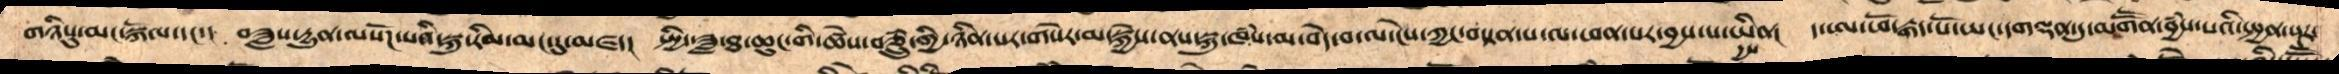གཉིསུ་མང་སྐོལ་དང་།  བཟླས་དྱུན་ལསོཌ་པའི་སྐུ་རིམ་མང་དུ་མཛད།  སྤྱི་ཟླ་ཐ་ཆུང་གི་ཚེས་བཅྲུཾ་གྱི་ཉིན་པར་གསེར་མ་སྐྱེས་ནས་སྐུ་ཁཾས་མ་བདེ་བ་ལ་ངེས་ཀྱང་བསྟན་པ་ལ་ཕན་པར་བྱས་པ་ཡིན། ད་ཨ་ཕོ་རྒད་པོ་ཡང་དགལྡན་དུ་མགཽན་བྱཾས་པའི་སྤྱན་སྔར་
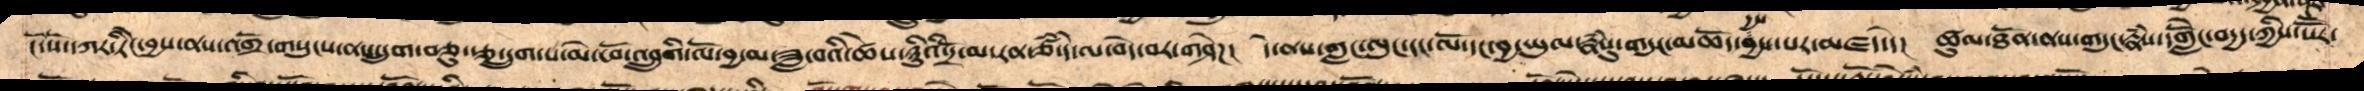ངོ་སོ་དཀར་ཏིངེ་བྱས་ནས་འགྲོ་གསུངས་ནས་དྲུག་བཅུ་རྩ་དྲུག་པ་མེ་ཕོ་འབྲུགི་ལོ་བྱ་མ་ཟླ་བའི་ཚེས་ཉིུའི་དྲོ་མ་རན་ཙཾ་དེ་ལ་བདེ་བར་གཤེཌ།  དེ་ནས་གླང་ལུང་དང་ལོ་དང་བྱ་ཡུལ་རྣཾསུ་གདུང་མཆོད་དྱས་པར་མཛད་དེ་  ཚུལ་ཐོན་ནས་གདུང་རྣཾས་དགླེངོ་བདྱད་ཀྱིས་སཽར་
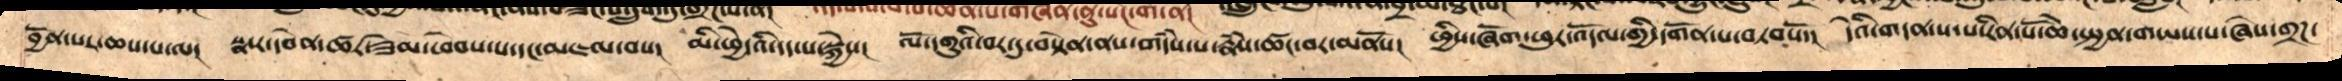བྱོན་པར་ཆས་པ་ལ། སྣ་ར་དབེན་ཚར་ཟེམ་ཕེབས་པ་དང་མཇལ་བས།  མི་ཕྱེ་འི་དད་པ་སྐྱེས། ལོ་དགུའི་བར་དུ་བསྟེན་ནས་གདཾས་པ་རྣཾས་ཚང་བར་མནོས།  ཕྱིས་ཞོག་ཕུར་འདོལ་གྱི་དགོན་པ་བཏབསོ་།  དེའི་གདན་ས་རིན་པོ་ཆེ་སྤྱན་གཡས་པ་ཞེས་གྲཌ་
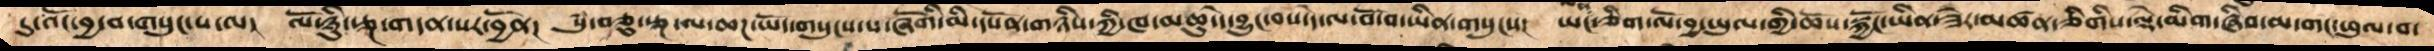དུ་འོང་བྱ་བ་གསུང་པ་ལ།  ལོ་ཉིུ་རྩྔ་གདན་སར་བྱོན།  སུཾ་བཅུ་རྩྔ་ལ་ཆཌ་ཡོད་གསུངས་པ་ཞོགི་མི་དཔོན་གཉིས་ཀྱི་ཁ་མཆུ་དེ་བྱུང་བས་དེ་ལ་བོ་བ་ཡིན་གསུངས།  ཡང་ལན་ཅིག་ལོ་བྱ་ཡུལ་གྱི་ཆོས་སྐྱོང་ཡིན་ཟེར་མཚན་ཅིགིས་ལྡེ་མིག་ཞིབ་མ་གང་ཕུལ་བ་
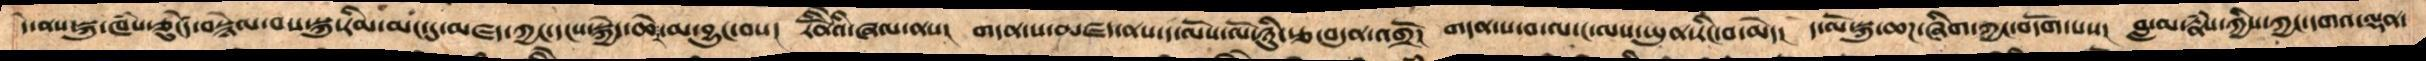དེ་ནས་སྐུ་ཁཾས་ཅུངཟེད་བསྙེལ་བས་སྐུ་རིམ་མང་དུ་མཛད་ཀྱང་དངས་སྐྱེད་ཆེར་མ་བྱུང་བས།  རིནོེའི་ཞལ་ནས།  གདན་ས་མཛད་ནས་ད་ལོས་ལོ་ཉིུརྩ་བདུན་འགྲོ། གདན་ས་བ་ལ་ང་ལས་ཡུན་རིང་བ་མེད།  ད་ལོ་སྐུ་ཆཌ་ཞིག་ཀྱང་བདོག་པས།  བླ་མ་རྣཾས་ཀྱིས་ཀྱང་དགའ་ལྡན་
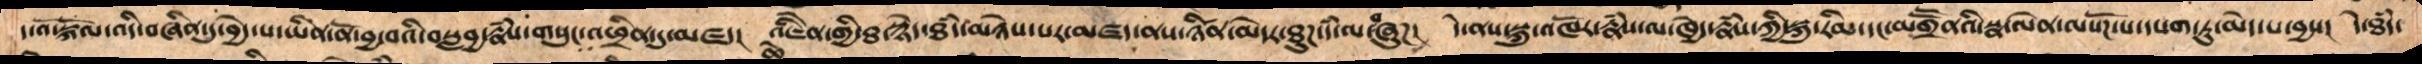ད་འོ་སྐོལ་འདི་བཞིན་དུ་བྱེད་པ་ཡིན་ནོ་བྱ་བའི་བསླབྱ་རྣཾས་གསུང་འཕྲིན་དུ་མཛད།  འཇིནེ་གྱི་ཐ་སྙེད་ཐཾད་མཉེས་པར་མཛད་ནས་ཉིཚན་མེདར་ཐུཌ་དཾ་ལ་བཞུཌ།  དེ་ནས་སྐུ་འཁོར་རྣཾས་ལ་ཁྱེད་རྣཾས་ཀྱི་སྐུ་རིམ་དང་མགྲཽནའི་སྣ་ལེན་ལསོཌ་པ་དཔག་ཏུ་མེད་པ་བྱས།  དེ་ཐཾད་
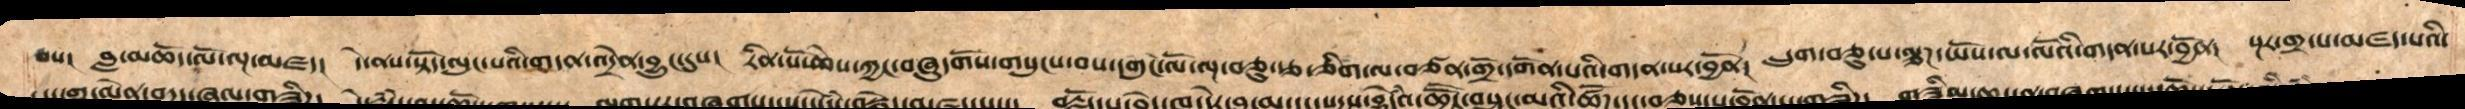བས།  བླ་མཆོད་ལོ་ལྔ་མཛད།  དེ་ནས་སྟོད་ལུང་པའི་གདན་འདྲེན་བྱུང་དུས། རིན་པོ་ཆེས་ཀྱང་བཞུ་གོས་གསུང་བས་དགུང་ལོ་ལྔ་བཅུ་རྩ་ཅིག་ལ་བཙན་གྲོ་དགོན་པའི་གདན་སར་བྱོན།  དྲུག་བཅུ་པ་ལྕཌ་ཡོས་ལ་ལོའི་གདན་སར་བྱོན། སྔར་གྲྭ་པ་མཛད་པའི་
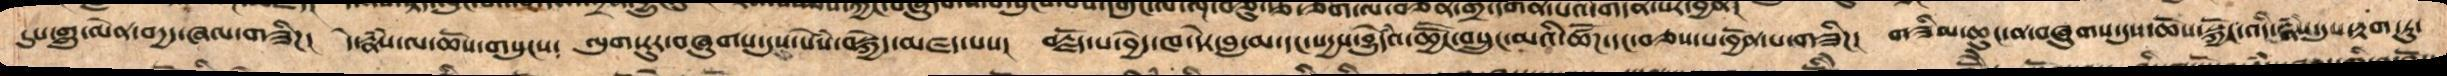དུས་གླུ་ལེན་བདྱད་ཞལ་གཟིཌ།  དེ་རྣཾས་ལ་ཆོས་གསུངས།  ལུག་རུར་བཞུགས་དུས་སེཾས་བསྐྱེད་མཛད་པས།  བརྗོད་པ་བྱེད་ཁ་དེར་བླ་མ་དང་སདྱས་བྱུདེཾའ་ཆྱཽང་བསྲུང་མའི་ཚོཌ་དང་བཅས་པ་བྱོན་པ་གཟིཌ། གཟིམ་ཆུང་ན་བཞུགས་དུས་ཆོས་སྐྱོང་འདི་རྣཾས་དུས་རྟག་ཏུ་
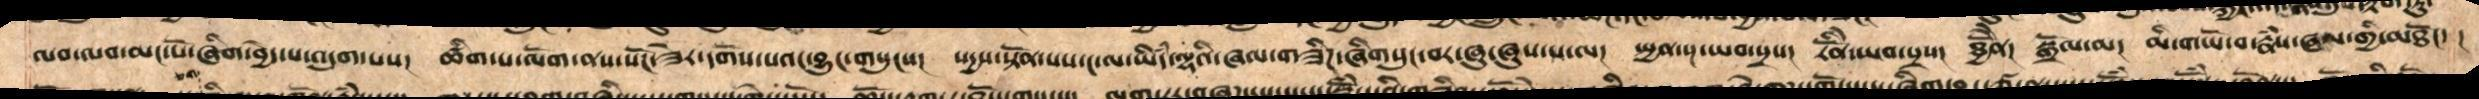ལབ་ལབ་མང་པོ་ཞིག་བྱེད་པ་འདུག་པས།  ཚིག་པ་ལོག་ནས་སོང་ཟེར་དགོས་པའང་བྱུང་གསུངས།  སདྱས་སྟོན་པས་ང་ལ་ཡི་དཾ་ལྷའི་ཞལ་གཟིཌ་ཞིགསུང་བར་ཞུ་ཞུས་པ་ལ།  སྤྱན་སྔ་ཡབ་སྲས། རིནོེ་ཡབ་སྲས།  ཐྱིནོེ། སྒྲོལ་མ། མི་གཡོ་བ་རྣཾས་ཀྱི་ཞལ་གྱི་མཐོང་།
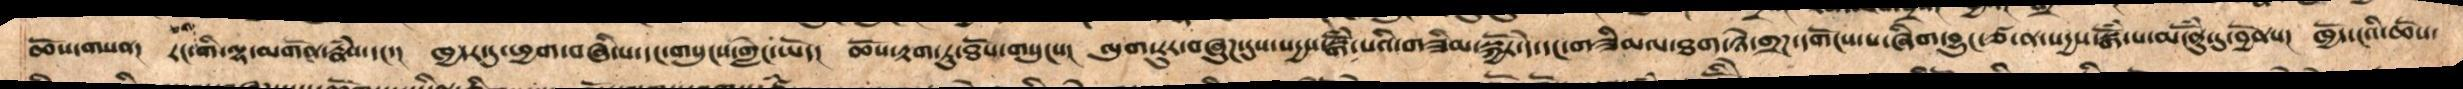ཆོས་གསན། རང་གི་ལྷ་མགོན་རྣཾས་དང་། ཁྱདར་དུ་ཕྱག་བཞི་པ་དང་གསུངས་གླེང་ཡོད་། ཆོས་རྟག་ཏུ་ཐོས་གསུངས། ལུག་རུར་བཞུཌ་དུས་སདྱས་སྒོཾ་པའི་གཟིམ་སྐྱོར་དེ་དང་གཟིམལ་ཐག་ཉེ་གྲཌ་དགོངས་པ་ཞིག་བྱུང་ཙ་ན་སདྱས་སྒོཾ་པ་མངོནུཾ་དུ་བྱོནས། ཁྱོད་ངའི་ཆོས་
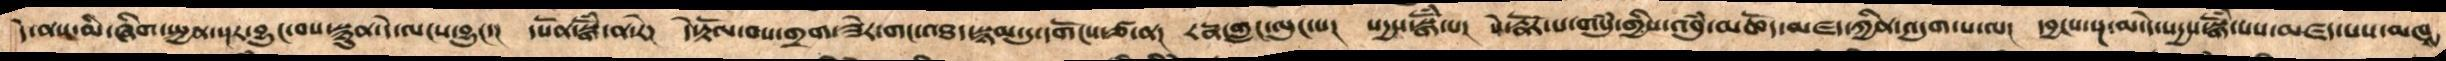དེ་ནས་མི་ཞིག་སྤྱན་སྔར་བྱུང་བས་སྙུན་དེ་ལངས་བྱུང་།  དཔོན་སྒོཾ་ན་རེ། དེ་རྟོལ་བས་གྲག་ཟེར་གང་འཐད་སྙམ་དུ་དགོངས་ཙ་ན།  རཏྣ་གླང་ལུང་པ། སདྱས་སྒོཾ་པ།  སེ་རྣོར་པ་གསུཾ་གྱིས་འབུཾ་མཆོད་མཛད་ཀྱིན་འདུག་པ་ལ།  དབྱངས་སྔ་མ་དེ་སདྱས་སྒོཾ་པས་མཛད་པས་མཁས
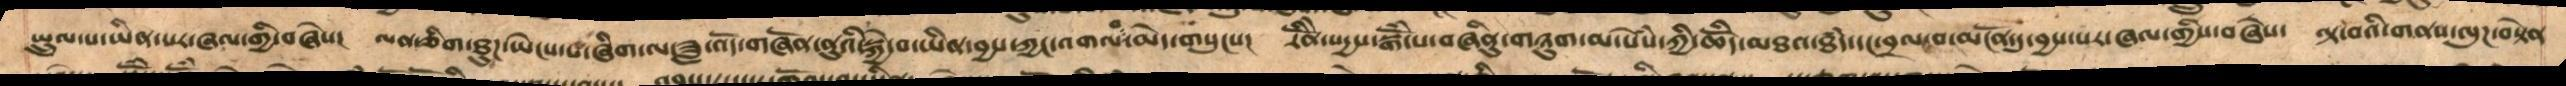སྤྲུལ་པ་ཡིན་པར་ཞལ་གྱི་བཞེས།  ལན་ཅིག་ཐུཌ་ཡེངས་པ་ཞིག་ལ་ཟླ་འོད་གཞོན་ནུའི་སྐྱེ་བ་ཡིན་བྱས་ཀྱང་འགལ་བ་མེད་གསུངས།  རིནོེ་སདྱས་སྒོཾ་པ་བཞིནུ་གཉུག་མ་སེཾས་ཀྱི་ཆོིད་མཐའ་ཐཾད་དང་བྲལ་བ་མངོན་དུ་བྱས་པར་ཞལ་གྱིས་བཞེས།  ལྟ་བའི་གནས་ལུཌ་བསྟེན
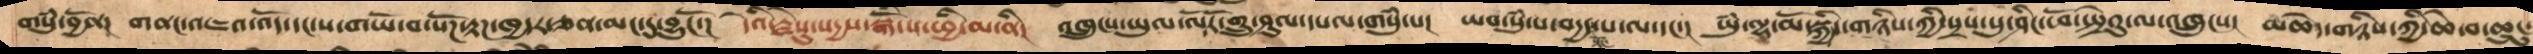གསུཾ་བྱོན། གནང་འཇའ་འོད་དང་ས་གཡོ་བ་སོཌ་རྟཌ་ཁྱདར་ཅན་མང་དུ་བྱུངོ་།  དེའི་རྗེསུ་སདྱས་སྒོཾ་པ་ཕྱི་མ་ནི།  འཁྲུངས་ཡུལ་ལ་རོ་གྲུ་ཤུལ་དཔལ་གསུཾ་པ།  ཡབ་སུཾ་པ་བདྱད་པ་ལ་དང་།  ཡུཾ་ལྷ་མོ་སྐྱིད་གཉིས་ཀྱི་སྲས་སུ་ཤིང་ཕོ་སྤྲེའུ་ལ་འཁྲུངས།  མཆེད་གཉིས་ཀྱི་ཆེ་བ་ཆུངུ་
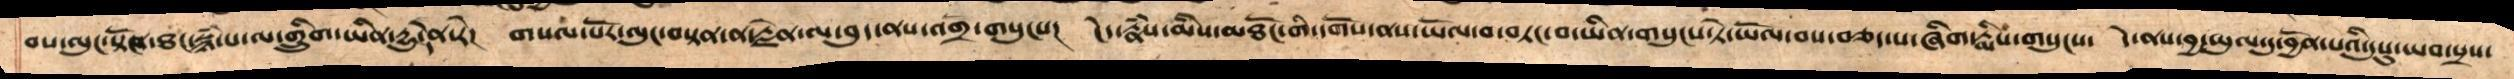བས་ལུང་སྟོན་ཐང་སྙཾ་པ་ལ་གྲིུག་ཡིན་དྱུད་ན་རེ།  གསལ་པོར་ལུང་བསྟན་ན་རྗེན་ལ་བུད་ནས་འགྲོ་གསུངས།  ངེད་རྣཾས་མིས་མཐོང་གི་དགོས་ནས་ཡོལ་བ་གཏང་བ་ཡིན་གསུངས་ཏེ་ཡོལ་བས་བཅད་པ་ཞིག་རྨིས་གསུངས།  དེ་ནས་བྱ་ཡུལ་དུ་བྱོན་པའི་དུསུ་ཡབ་སྲས་
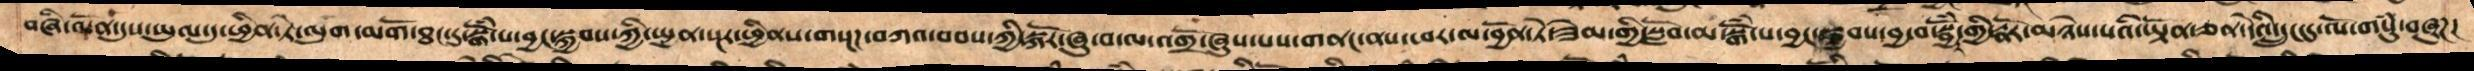བཞི་ལོན་དུསཡུལ་དུ་ཕྱིན་ཏེ་ལུག་མགོ་ཐང་དུ་སྒོཾ་པ་བྱང་སྐྱབས་ཀྱི་སྤྱན་སྔར་ཕྱིནས་གསྔཌ་བཀའ་བབས་ཀྱི་སྐོར་ཞུ་བ་ལ་འགྲོ་ཞུས་པས་གནང་ནས་ཕར་ལ་བྱོན་ཏེ་ཟེམ་གྱི་སློབ་མ་སྒོཾ་པ་བྱང་སྐྱབས་བྱ་བ་སྦྱོཾར་གྱི་རྣོར་མཉེས་པའི་ཡྟོན་ཅན་དེའི་དྲུང་དུ་ལོ་གསུཾ་དུ་བཞུཌ།
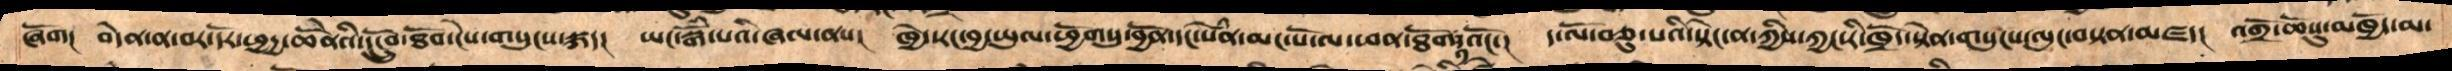ཞོག།  བདེན་ན་བར་དོར་ཕྱདྱ་ཆེནོའི་དངྲོུབ་་ཐོབ་ངེས་གསུངས་སྐད།  ཡང་སྒོཾ་པའི་ཞལ་ནས།  ཁྱེད་རང་བྱ་ཡུལ་ཕྱོགསུ་བྱོན་དང་སེཾན་མང་པོ་ལ་ཕན་ཐོག་༡་འོང་།  ད་ལོ་བཅུ་པའི་སྟེང་ན་ཀྱིས་ཀྱང་རི་ཁྲོད་སྟེན་གསུངས་ལུང་བསྟན་མཛད།  འགྲོ་ཆོསུ་མཁྱོད་མ་
